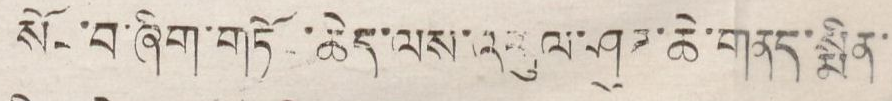སོང་བ་ཞིག་གཏོང་ཆེད་ལས་འགུལ་ཤུཊ་ཆེ་གནད་སྨིན་
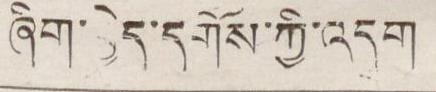ཞིག་བྱེད་དགོས་ཀྱི་འདུག
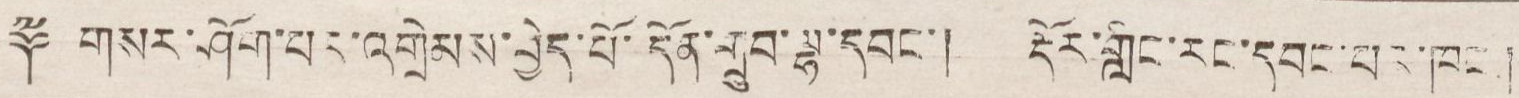༈ གསར་ཤོག་པར་འགྲེམས་བྱེད་པོ་དོན་གྲུབ་ལྷ་དབང་། རྡོར་གླིང་རང་དབང་པར་ཁང་།
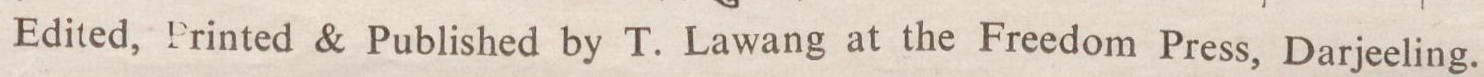Edited, Printed & Published by T. Lawang at the Freedom Press, Darjeeling.
